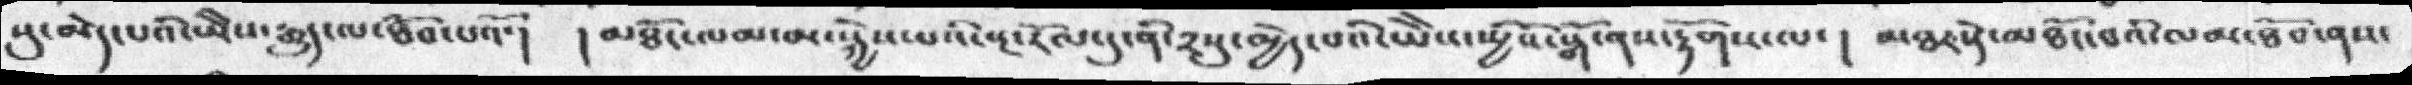སུ་མེད་པའི་ཡེེས་རྒྱུད་ལ་ཐོབ་པའོ་། ། མཐོང་ལམ་མ་སྐྱེས་པའི་སྔ་རོལ་དུ་ནི་༢སུ་མྱེད་པའི་ཡེེས་སྤྱིའི་སྒོ་ནས་རྟོགས་ལ་།  མཐར་དེ་མཐོང་བའི་ལམ་ཐོབ་ནས་
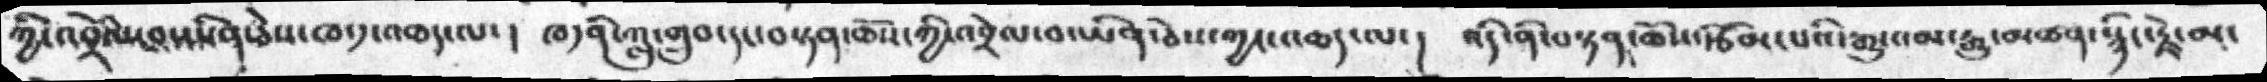ཀྱི་འབྲེལ་བ་ཡིན་ཅེས་ཁ་༡་འཆད་ལ་ ། ཁ༡ནི་ཀླུ་གྲུབ་དང་བསྟན་ཆོས་ཀྱི་འབྲེལ་བ་ཡིན་ཅེས་ཀྱང་འཆད་ལ་།  འདི་ནི་བསྟན་ཆོས་རྩོམ་པའི་རྒྱུས་མ་རྒྱུ་མཚན་སྙིད་རྗེ་མ་
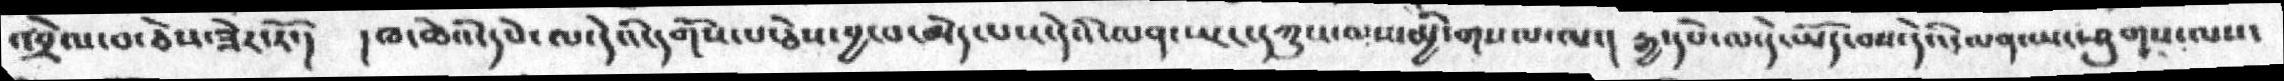འབྲེལ་བ་ཅེས་ཟེར་རོ་།  ། ཁ་ཆེའི་དཔེ་ལ་དེའི་དགོས་པ་ཅེས་བྱ་བ་མེད་པས་དེའི་ལན་ཡང་དཀྱུས་ལས་མྱི་གསལ་ལ་།  རྒྱ་དཔེ་ལ་དེ་ཡོད་བས་དེའི་ལན་ཡང་ཤུགས་ལས་
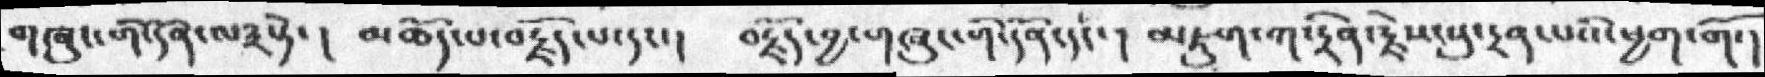གཞུང་གི་དོན་ལ༣སྟེ་།  མཆོད་པ་བརྗོད་པ་དང་།  བརྗོད་བྱ་གཞུང་གི་དོན་དང་།  མཇུག་ཀ་དྲིན་རྗེས་སུ་དྲན་པའི་ཕྱག་གོ་།
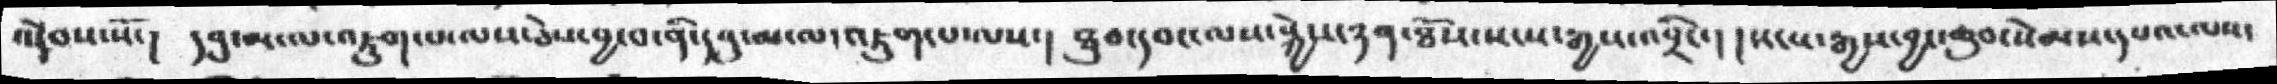འདེབས་སོ་། དབུ་མ་ལ་འཇུག་པ་ལས་ཅེས་བྱ་བ་ནི་དབུ་མ་ལ་འཇུག་པ་ལས་།  ཐུབ་དབང་ལས་སྐྱེས་ཉན་ཐོས་སངས་རྒྱས་འབྲིང་། །སངས་རྒྱས་བྱང་ཆུབ་སེམས་དཔའ་ལས་
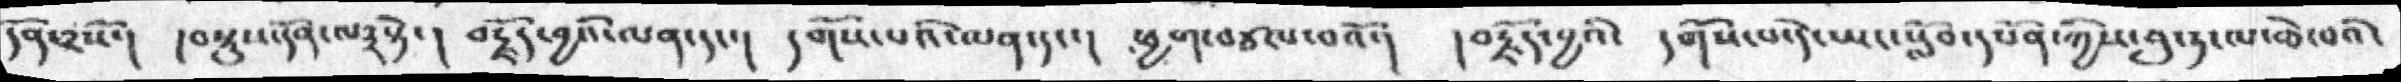དོན་༢སོ་། །བསྡུས་དོན་ལ༣སྟེ་། བརྗོད་བྱའི་ལན་དང་། དགོས་པའི་ལན་དང་། ཕྱག་བཙལ་བའོ་། །བརྗོད་བྱའི་  དགོས་པ་དེ་ཡང་སློབ་དཔོན་གྱིས་བུ་ཏ་ལ་ཆེ་བའི་
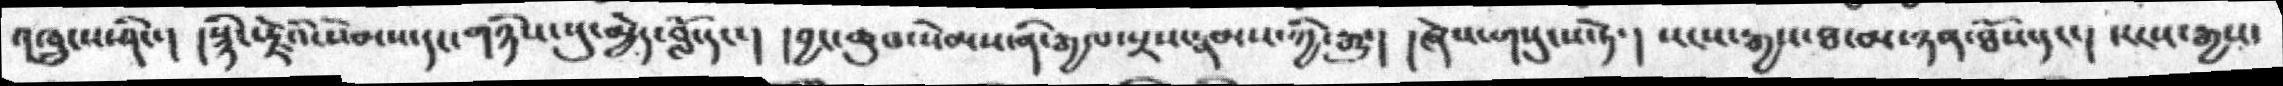འཁྲུངས་ཤིང་། །སྙིང་རྗེའི་སེམས་དང་གཉིས་སུ་མྱེད་བློ་དང་། །བྱང་ཆུབ་སེམས་ནི་རྒྱལ་སྲས་རྣམས་ཀྱི་རྒྱུ་།  །ཞེས་གསུངས་དེ་། སངས་རྒྱས་ཐ་མ་ཉན་ཐོས་དང་། སངས་རྒྱས་
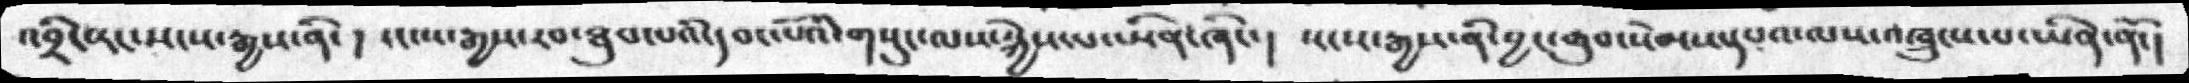འབྲིང་རང་སངས་རྒྱས་ནི་ ། སངས་རྒྱས་རབ་ཐུབ་པའི་དབང་པོའི་གསུང་ལས་སྐྱེས་པ་ཡིན་ཞིང་། སངས་རྒྱས་ན་བྱང་ཆུབ་སེམས་དཔའ་ལས་འཁྲུངས་པ་ཡིན་ནོ་།
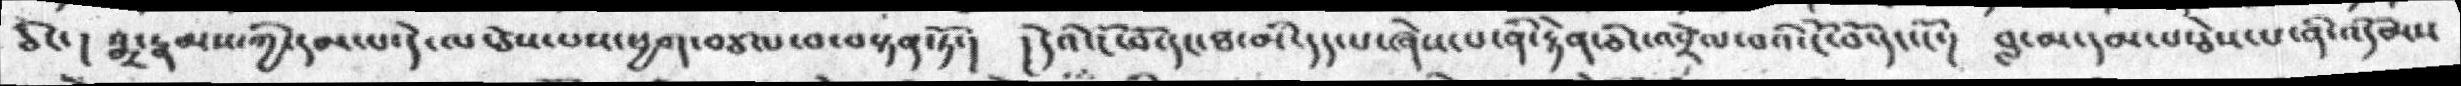ཅིང་། སྨྲ་རྣམས་ཀྱི་དམ་པ་དེ་ལ་ཅེས་པས་ཕྱག་བཙལ་བ་བསྟན་ཏོ་།  །དེའི་ངོ་བོ་དང་ཐ་མི་དད་པ་ཞེས་པ་ནི་རྟེན་ཅིང་འབྲེལ་བའི་ངོ་བོ་དང་ངོ་།  བླ་བ་དམ་པ་ཅེས་པ་ནི་འདོམས་
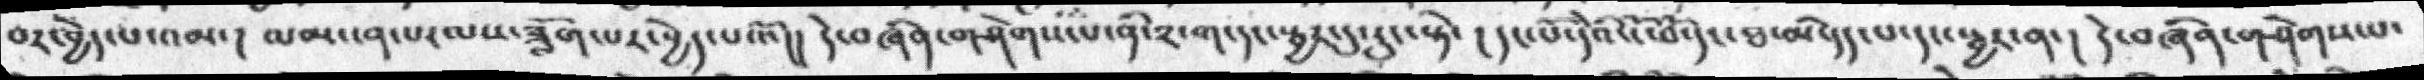བར་བྱེད་པ་འམ་ ། ལམ་ངན་པ་ལས་ཟློག་པར་བྱེད་པ་འོ་།། དེ་བཞིན་གཤེགས་པ་ནི་༢་ག་དང་སྦྱར་དུ་རུང་སྟེ་ ། དང་པོ་དེའི་ངོ་བོ་དང་ཐ་མི་དད་པ་དང་སྦྱར་ན་།  དེ་བཞིན་གཤེགས་པ་
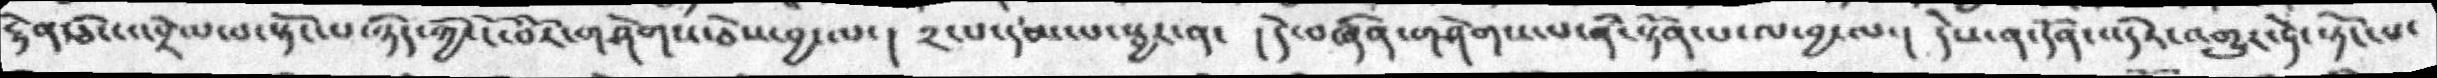རྟེན་ཅིང་འབྲེལ་བ་སྟོང་པ་ཉིད་ཀྱི་ངོ་བོར་གཤེ༌༌གས་ཅེས་བྱ་ལ་། ༢་པ་དམ་པ་སྦྱར་ན་  ། དེ་བཞིན་གཤེགས་པ་ནི་སྟོན་པ་ལ་བྱ་ལ་།  དེས་ན་དོན་འདིར་འགྱུར་ཏེ་སྟོང་པ་
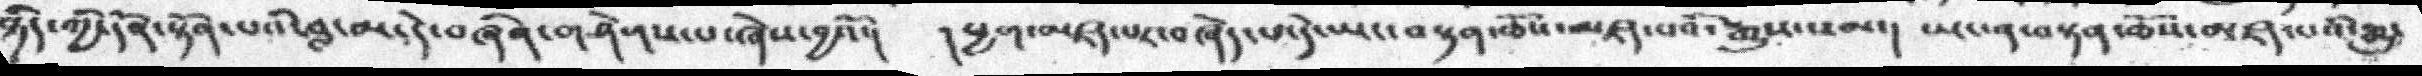ཉིད་གྱི་དོན་སྟོན་པའི་བླ་མ་དེ་བཞིན་གཤེགས་པ་ཞེས་བྱའོ་།   །ཕྱག་མཛད་པར་བཞེད་པ་དེ་ཡང་བསྟན་ཆོས་མཛད་པའི་རྒྱུས་སམ་།  ཡང་ན་བསྟན་ཆོས་མཛད་པའི་རྒྱུ་
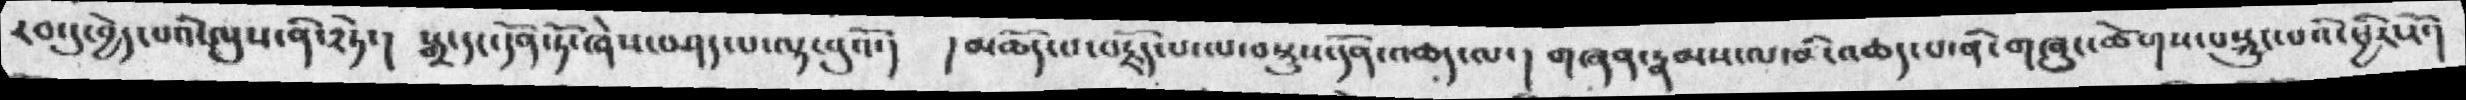རབ་དུ་བྱེད་པའི་ལུས་ནི་༢ཏེ་།  སྒྲ་དང་དོན་ཏོ་ཞེས་བཤད་པ་ལྟ་བུའོ་།  །མཚོད་པ་བརྗོད་པ་ལ་བསྡུས་དོན་འཆད་ལ་།  གཞན་རྣམས་ལ་མི་འཆད་པ་ནི་གཞུང་ཆོགས་བསྐུང་པའི་ཕྱིར་རོ་།
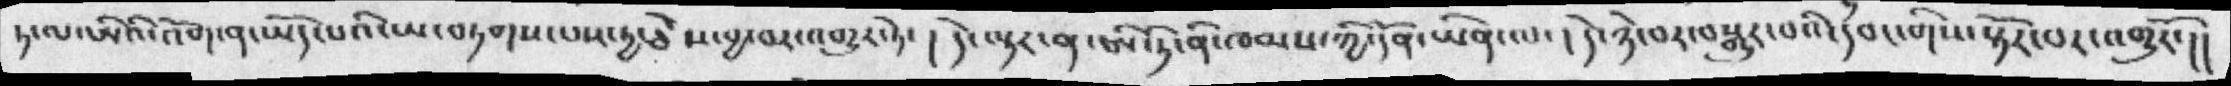ཏ་ལ་ཡིའི་འོག་ན་ཡོད་པའི་ཡ་བཏགས་པས་ཏྱ་ཅེས་བྱ་བར་འགྱུར་ཏེ་  ། དེ་ལྟར་ན་ཨི་ཏེ་ནི་ཁམས་ཀྱི་དོན་ཡིན་ལ་།  དེ་ཉེ་བར་བསྒྱུར་བའི་དབང་གིས་སྟོར་བར་འགྱུརོ་།།
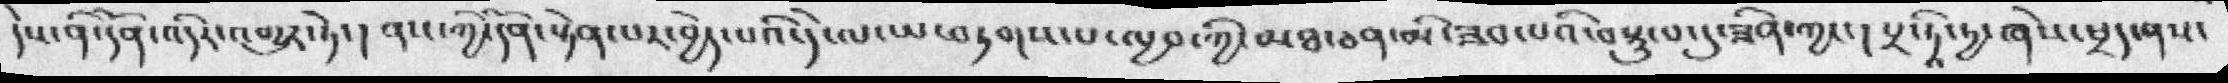དེས་ནི་དོན་འདིར་འགྱུར་ཏེ་། ནས་ཀྱི་དོན་སྟོན་པར་བྱེད་པའི་དེ་ལ་ཡ་བཏགས་པ་ཁྱབ་ཀྱི་མཐ་ཅན་མི་ཟབ་པའི་བསྡུ་པ་དུ་ཟིན་ཀྱང་། པྲ་ཏཱི་ཏྱ་ཞེས་ཕྲད་ནསད་
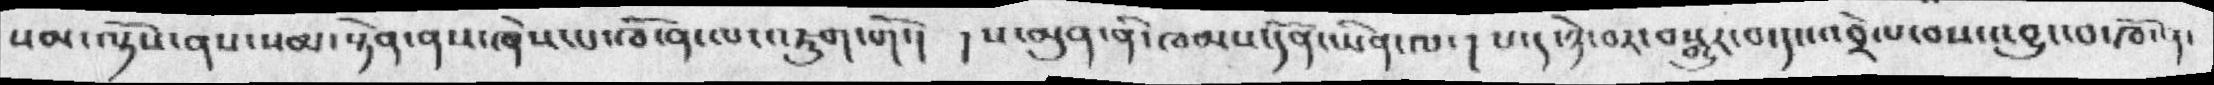སམ་ལྟོས་ནས་སམ་སྟེན་ནས་ཞེས་པ་ཁོ་ན་ལ་འཇུག་གོ་། ། ས་མུན་ནི་ཁམས་དོན་ཡིན་ལ་། པ་ད་ཉེ་བར་བསྒྱུར་བ་དང་འབྲེལ་བས་འབྱུང་པ་ཁོ་ན་
